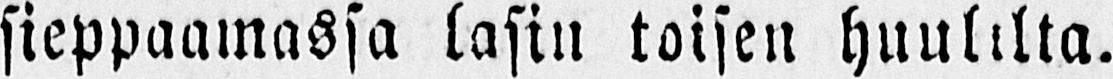sieppaamassa lasin toisen huulilta.
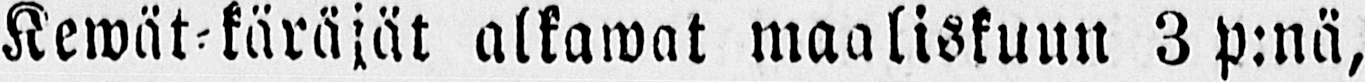Kewät-käräjät alkawat maaliskuun 3 p:nä,
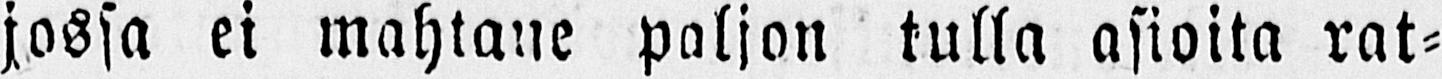jossa ei mahtane paljon tulla asioita rat-
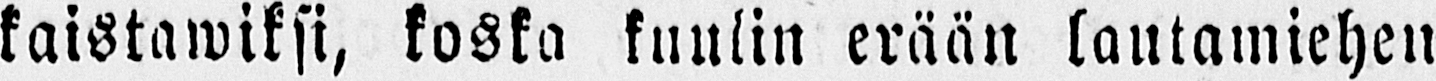kaistawiksi, koska kuulin erään lautamiehen
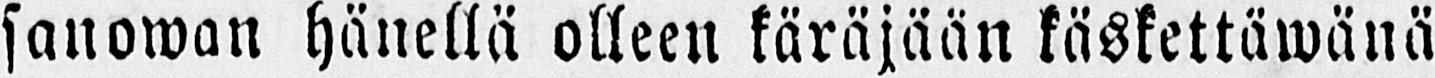sanowan hänellä olleen käräjään käskettäwänä
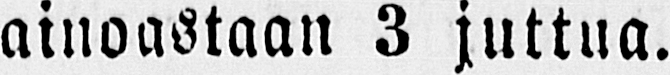ainoastaan 3 juttua.
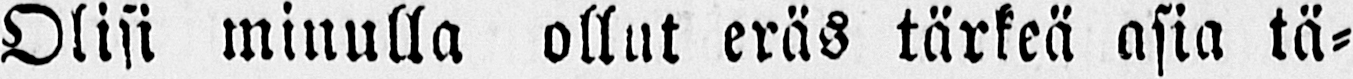Olisi minulla ollut eräs tärkeä asia tä-
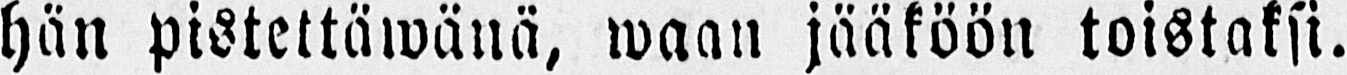hän pistettäwänä, waan jääköön toistoksi.
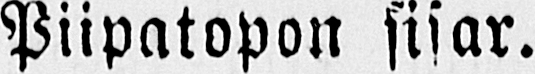Piipatopon sisar.
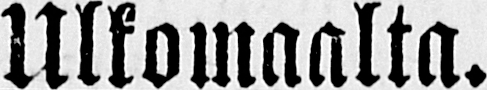Ulkomaalta.
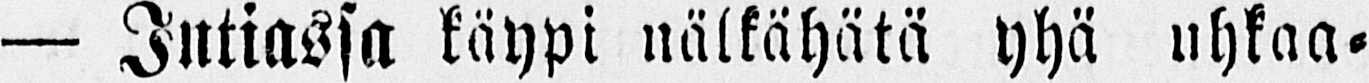— Intiassa käypi nälkähätä yhä uhkaa-
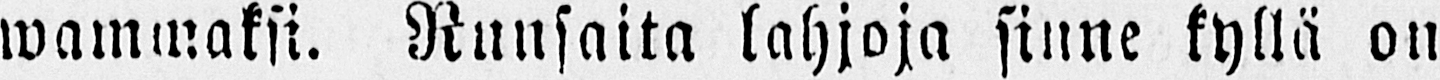mammaksi. Runsaita lahjoja sinne kyllä on
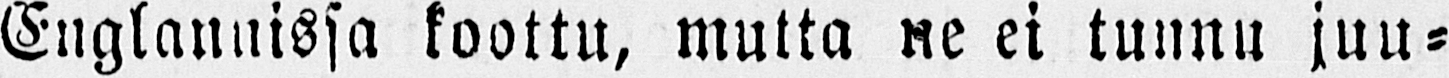Englannissa koottu, mutta ne ei tunnu juu-
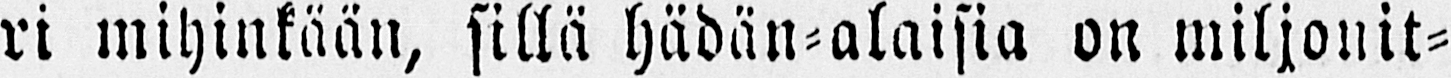ri mihinkään, sillä hädän-alaisia on miljonit-
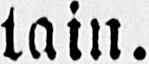tain.
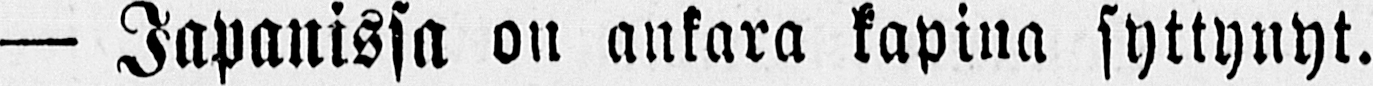— Japanissa on ankara kapina syttynyt.
